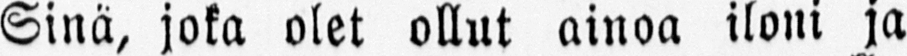Sinä, joka olet ollut ainoa iloni ja
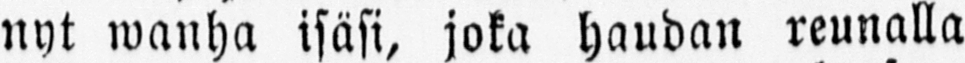nyt wanha isäsi, joka haudan reunalla
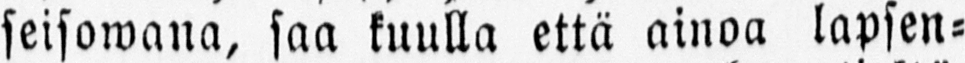seisowana, saa kuulla että ainoa lapsen-
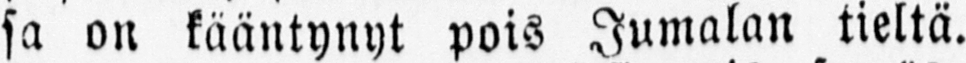sa on kääntynyt pois Jumalan tieltä.
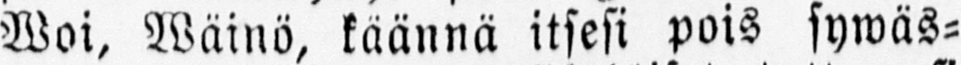Woi, Wäinö, käännä itsesi pois sywäs-
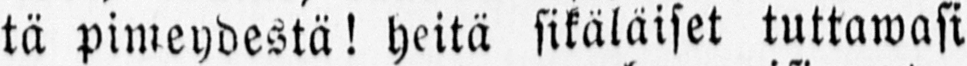tä pimeydestä! heitä sikäläiset tuttawasi
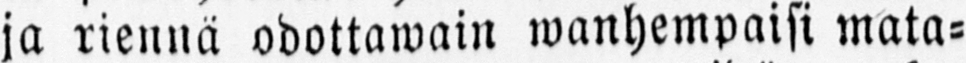ja riennä odottawain wanhempaisi mata-
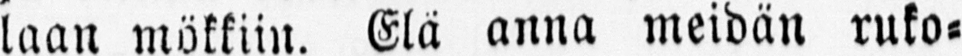laan mökkiin. Elä anna meidän ruko-
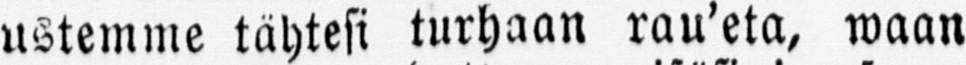ustemme tähtesi turhaan rau'eta, waan
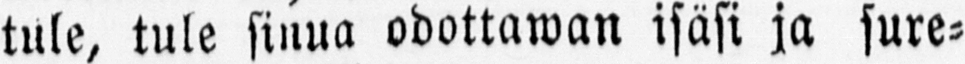tule, tule sinua odottawan isäsi ja sure-
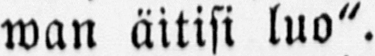wan äitisi luo".
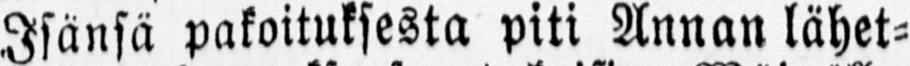Isänsä pakoituksesta piti Annan lähet-
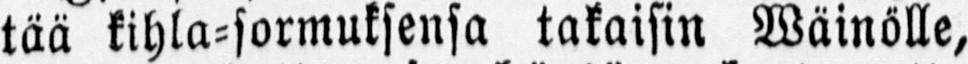tää kihla-sormuksensa takaisin Wäinölle,
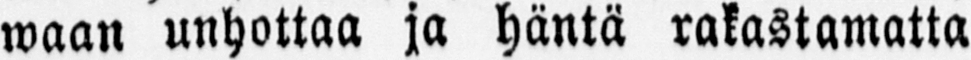waan unhottaa ja häntä rakastamatta
